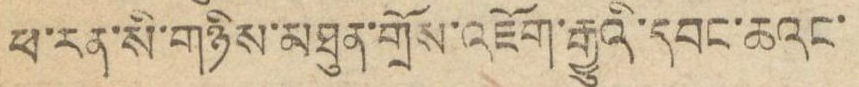ཕ་རན་སི་གཉིས་མཐུན་གྲོས་འཇོག་རྒྱུའི་དབང་ཆའང་
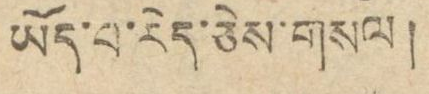ཡོད་པ་རེད་ཅེས་གསལ།
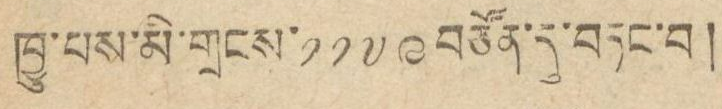ཁྱུ་པས་མི་གྲངས་ ༡༡༧༩ བཙོན་དུ་བཏང་བ།
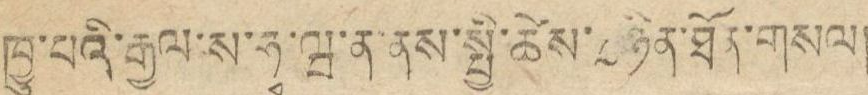ཁྱུ་པའི་རྒྱལ་ས་ཧྭ་ཝ་ན་ནས་སྤྱི་ཚེས་ ༨ ཉིན་ཐོན་གསལ།
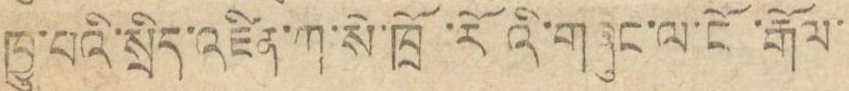ཁྱུ་བའི་སྲིད་འཛིན་ཀ་སེ་ཁྲོ་རོའི་གཞུང་ལ་ངོ་རྒོལ་
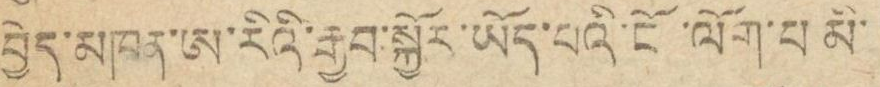བྱེད་མཁན་ཨ་རིའི་རྒྱབ་སྐྱོར་ཡོད་པའི་ངོ་ལོག་པ མི་
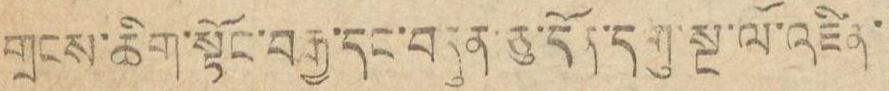གྲངས་ཆིག་སྟོང་བརྒྱ་དང་བདུན་ཅུ་དོན་དགུ་སྔ་ལོ་འཛིན་།
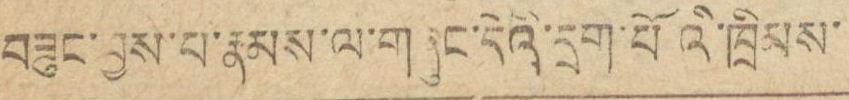བཟུང་བྱས་པ་རྣམས་ལ་གཞུང་དེའི་དྲག་པོའི་ཁྲིམས་
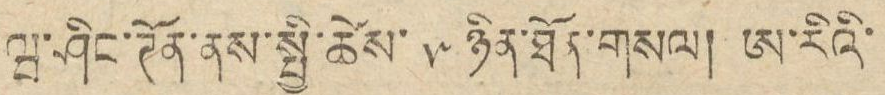ཝ་ཤིང་ཊོན་ནས་སྤྱི་ཚེས་ ༥ ཉིན་ཐོན་གསལ། ཨ་རིའི་
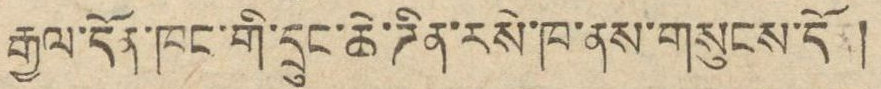རྒྱལ་དོན་ཁང་གི་དྲུང་ཆེ་ཌིན་རསེ་ཁ་ནས་གསུངས་དོན།
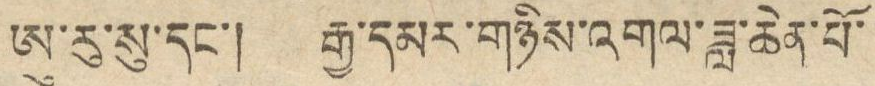ཨུ་རུ་སུ་དང་། རྒྱ་དམར་གཉིས་འགལ་ཟླ་ཆེན་པོ་
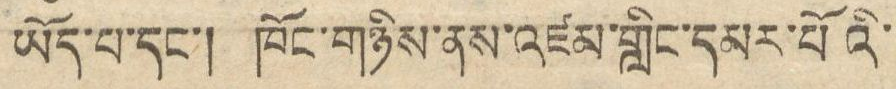ཡོད་པ་དང་། ཁོང་གཉིས་ནས་འཛམ་གླིང་དམར་པོའི་
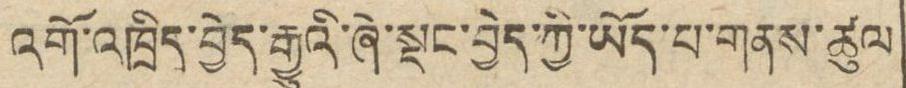འགོ་འཁྲིད་བྱེད་རྒྱུའི་ཞེ་སྡུང་བྱེད་ཀྱི་ཡོད་པ་གནས་ཚུལ
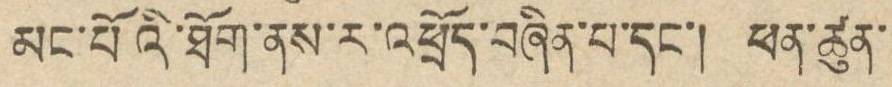མང་པོའི་ཐོག་ནས་ར་འཕྲོད་བཞིན་པ་དང་། ཕན་ཚུན་
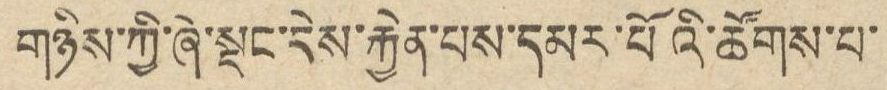གཉིས་ཀྱི་ཞེ་སྡང་དེས་རྐྱེན་པས་དམར་པོའི་ཚོགས་པ་
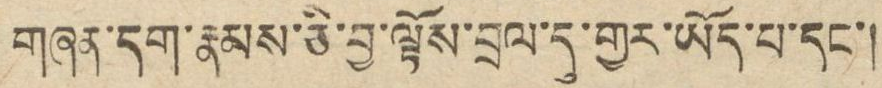གཞན་དག་རྣམས་ཅི་བྱ་ལྟོས་བྲལ་དུ་གྱུར་ཡོད་པ་དང་།
